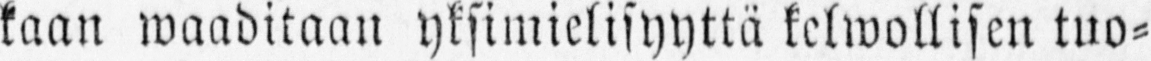kaan waaditaan yksimielisyyttä kelwollisen tuo-
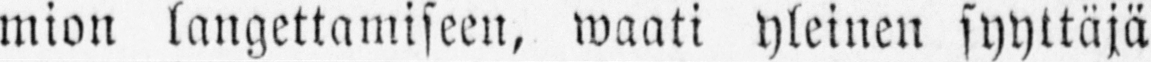mion langettamiseen, waati yleinen syyttäjä
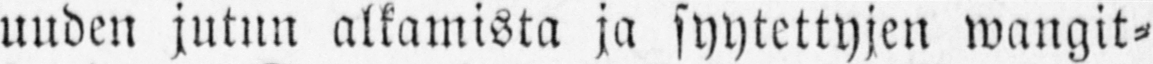uuden jutun alkamista ja syytettyjen wangit-
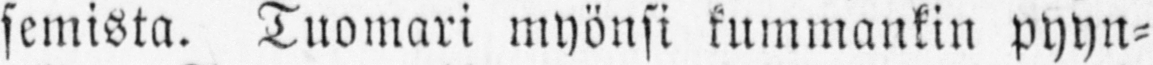semista. Tuomari myönsi kummankin pyyn-
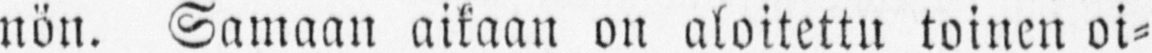nön. Samaan aikaan on aloitettu toinen oi-
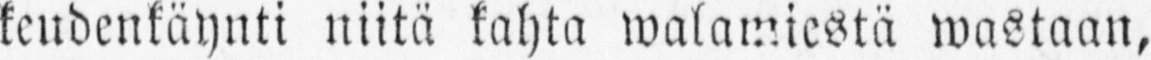keudenkäynti niitä kahta walamiestä wastaan,
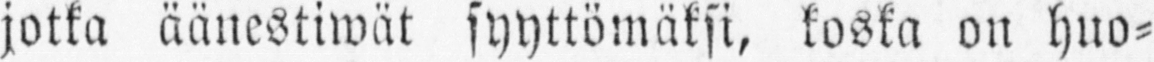jotka äänestiwät syyttömäksi, koska on huo-
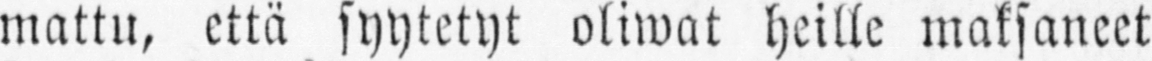mattu, että syytetyt oliwat heille maksaneet
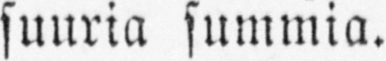suuria summia.
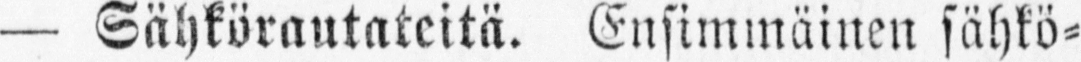— Sähkörautateitä. Ensimmäinen sähkö-
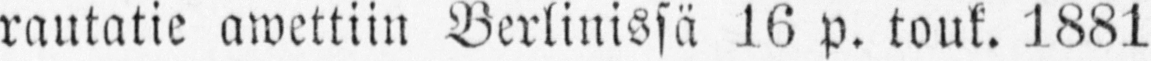rautatie awettiin Berlinissä 16 p. touk. 1881
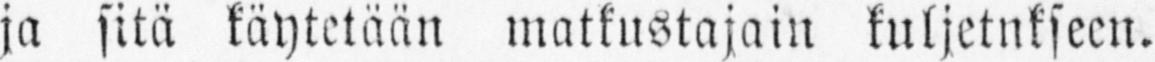ja sitä käytetään matkustajani kuljetnkseen.
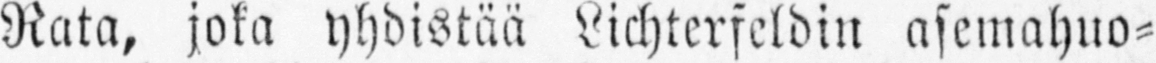Rata, joka yhdistää Lichterfeldin asemahuo-
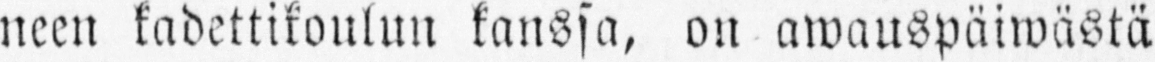neen kadettikoulun kanssa, on awauspäiwästä
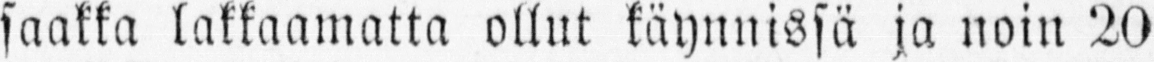saakka lakkaamatta ollut käynnissä ja noin 20
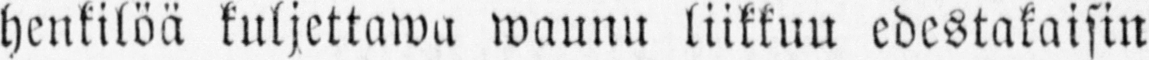henkilöä kuljettawa waunu liikkuu edestakaisin
